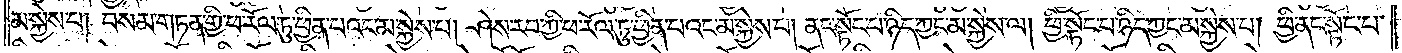མ་སྐྱེས་པ། བསམ་གཏན་གྱི་ཕ་རོལ་ཏུ་ཕྱིན་པའང་མ་སྐྱེས་པ། ཤེས་རབ་ཀྱི་ཕ་རོལ་ཏུ་ཕྱིན་པའང་མ་སྐྱེས་པ། ནང་སྟོང་པ་ཉིད་ཀྱང་མ་སྐྱེས་པ། ཕྱི་སྟོང་པ་ཉིད་ཀྱང་མ་སྐྱེས་པ། ཕྱི་ནང་སྟོང་པ་
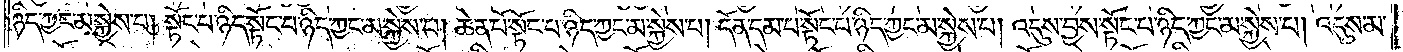ཉིད་ཀྱང་མ་སྐྱེས་པ། སྟོང་པ་ཉིད་སྟོང་པ་ཉིད་ཀྱང་མ་སྐྱེས་པ། ཆེན་པོ་སྟོང་པ་ཉིད་ཀྱང་མ་སྐྱེས་པ། དོན་དམ་པ་སྟོང་པ་ཉིད་ཀྱང་མ་སྐྱེས་པ། འདུས་བྱས་སྟོང་པ་ཉིད་ཀྱང་མ་སྐྱེས་པ། འདུས་མ་
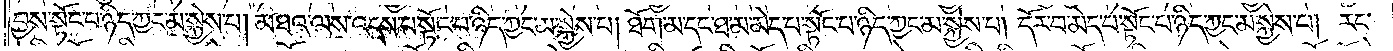བྱས་སྟོང་པ་ཉིད་ཀྱང་མ་སྐྱེས་པ། མཐའ་ལས་འདས་པ་སྟོང་པ་ཉིད་ཀྱང་མ་སྐྱེས་པ། ཐོག་མ་དང་ཐ་མ་མེད་པ་སྟོང་པ་ཉིད་ཀྱང་མ་སྐྱེས་པ། དོར་བ་མེད་པ་སྟོང་པ་ཉིད་ཀྱང་མ་སྐྱེས་པ། རང་
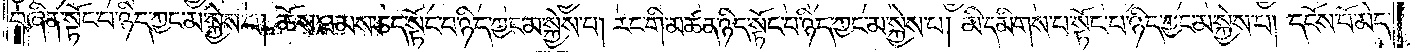བཞིན་སྟོང་པ་ཉིད་ཀྱང་མ་སྐྱེས་པ། ཆོས་ཐམས་ཅད་སྟོང་པ་ཉིད་ཀྱང་མ་སྐྱེས་པ། རང་གི་མཚན་ཉིད་སྟོང་པ་ཉིད་ཀྱང་མ་སྐྱེས་པ། མི་དམིགས་པ་སྟོང་པ་ཉིད་ཀྱང་མ་སྐྱེས་པ། དངོས་པོ་མེད་
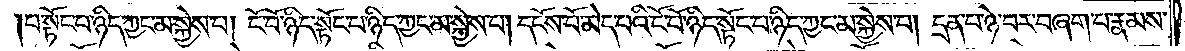པ་སྟོང་པ་ཉིད་ཀྱང་མ་སྐྱེས་པ། ངོ་བོ་ཉིད་སྟོང་པ་ཉིད་ཀྱང་མ་སྐྱེས་པ། དངོས་པོ་མེད་པའི་ངོ་བོ་ཉིད་སྟོང་པ་ཉིད་ཀྱང་མ་སྐྱེས་པ། དྲན་པ་ཉེ་བར་བཞག་པ་རྣམས་
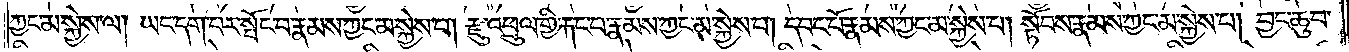ཀྱང་མ་སྐྱེས་ལ། ཡང་དག་པར་སྤོང་བ་རྣམས་ཀྱང་མ་སྐྱེས་པ། རྫུ་འཕྲུལ་གྱི་རྐང་པ་རྣམས་ཀྱང་མ་སྐྱེས་པ། དབང་པོ་རྣམས་ཀྱང་མ་སྐྱེས་པ། སྟོབས་རྣམས་ཀྱང་མ་སྐྱེས་པ། བྱང་ཆུབ་
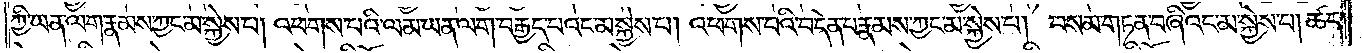ཀྱི་ཡན་ལག་རྣམས་ཀྱང་མ་སྐྱེས་པ། འཕགས་པའི་ལམ་ཡན་ལག་བརྒྱད་པའང་མ་སྐྱེས་པ། འཕགས་པའི་བདེན་པ་རྣམས་ཀྱང་མ་སྐྱེས་པ། བསམ་གཏན་བཞིའང་མ་སྐྱེས་པ། ཚད་
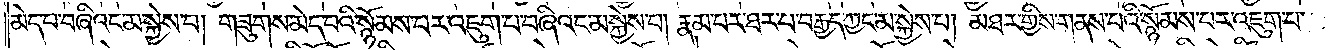མེད་པ་བཞིའང་མ་སྐྱེས་པ། གཟུགས་མེད་པའི་སྙོམས་པར་འཇུག་པ་བཞིའང་མ་སྐྱེས་པ། རྣམ་པར་ཐར་པ་བརྒྱད་ཀྱང་མ་སྐྱེས་པ། མཐར་གྱིས་གནས་པའི་སྙོམས་པར་འཇུག་པ་
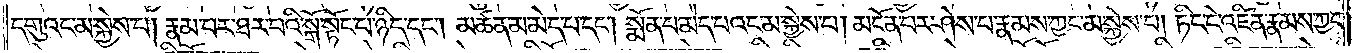དགུའང་མ་སྐྱེས་པ། རྣམ་པར་ཐར་པའི་སྒོ་སྟོང་པ་ཉིད་དང༌། མཚན་མ་མེད་པ་དང༌། སྨོན་པ་མེད་པའང་མ་སྐྱེས་པ་།མངོན་པར་ཤེས་པ་རྣམས་ཀྱང་མ་སྐྱེས་པ། ཏིང་ངེ་འཛིན་རྣམས་ཀྱང་
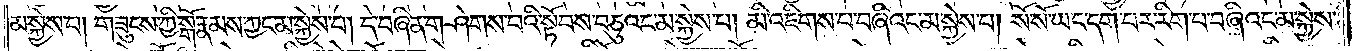མ་སྐྱེས་པ། གཟུངས་ཀྱི་སྒོ་རྣམས་ཀྱང་མ་སྐྱེས་པ། དེ་བཞིན་གཤེགས་པའི་སྟོབས་བཅུའང་མ་སྐྱེས་པ། མི་འཇིགས་པ་བཞིའང་མ་སྐྱེས་པ། སོ་སོ་ཡང་དག་པར་རིག་པ་བཞིའང་མ་སྐྱེས་
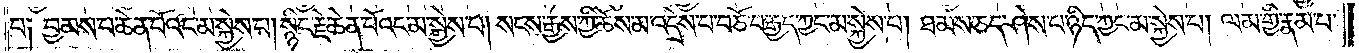པ༏ བྱམས་པ་ཆེན་པོའང་མ་སྐྱེས་པ། སྙིང་རྗེ་ཆེན་པོའང་མ་སྐྱེས་པ། སངས་རྒྱས་ཀྱི་ཆོས་མ་འདྲེས་པ་བཅོ་བརྒྱད་ཀྱང་མ་སྐྱེས་པ། ཐམས་ཅད་ཤེས་པ་ཉིད་ཀྱང་མ་སྐྱེས་པ། ལམ་གྱི་རྣམ་པ་
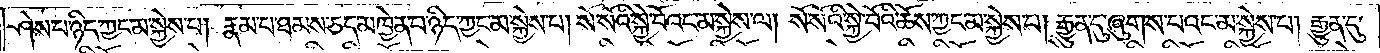ཤེས་པ་ཉིད་ཀྱང་མ་སྐྱེས་པ། རྣམ་པ་ཐམས་ཅད་མཁྱེན་པ་ཉིད་ཀྱང་མ་སྐྱེས་པ། སོ་སོའི་སྐྱེ་བོའང་མ་སྐྱེས་པ། སོ་སོའི་སྐྱེ་བོའི་ཆོས་ཀྱང་མ་སྐྱེས་པ། རྒྱུན་དུ་ཞུགས་པའང་མ་སྐྱེས་པ། རྒྱུན་དུ་
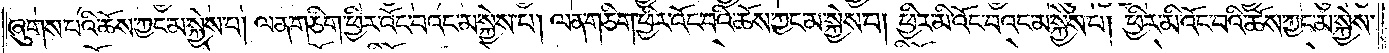ཞུགས་པའི་ཆོས་ཀྱང་མ་སྐྱེས་པ། ལན་ཅིག་ཕྱིར་འོང་བའང་མ་སྐྱེས་པ། ལན་ཅིག་ཕྱིར་འོང་བའི་ཆོས་ཀྱང་མ་སྐྱེས་པ། ཕྱིར་མི་འོང་བའང་མ་སྐྱེས་པ། ཕྱིར་མི་འོང་བའི་ཆོས་ཀྱང་མ་སྐྱེས་
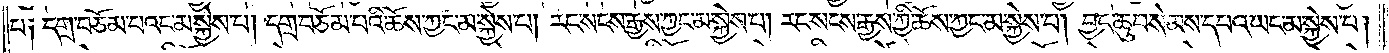པ༏ དགྲ་བཅོམ་པའང་མ་སྐྱེས་པ། དགྲ་བཅོམ་པའི་ཆོས་ཀྱང་མ་སྐྱེས་པ། རང་སངས་རྒྱས་ཀྱང་མ་སྐྱེས་པ། རང་སངས་རྒྱས་ཀྱི་ཆོས་ཀྱང་མ་སྐྱེས་པ། བྱང་ཆུབ་སེམས་དཔའ་ཡང་མ་སྐྱེས་པ།
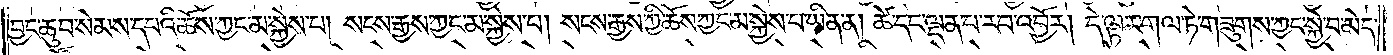བྱང་ཆུབ་སེམས་དཔའི་ཆོས་ཀྱང་མ་སྐྱེས་པ། སངས་རྒྱས་ཀྱང་མ་སྐྱེས་པ། སངས་རྒྱས་ཀྱི་ཆོས་ཀྱང་མ་སྐྱེས་པ་ཡིན་ན། ཚེ་དང་ལྡན་པ་རབ་འབྱོར། དེ་ལྟར་གལ་ཏེ། གཟུགས་ཀྱང་སྐྱེ་བ་མེད་
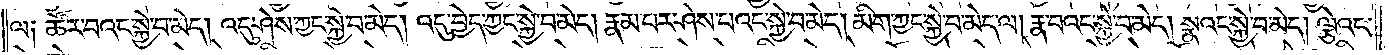ལ༏ ཚོར་བའང་སྐྱེ་བ་མེད། འདུ་ཤེས་ཀྱང་སྐྱེ་བ་མེད། འདུ་བྱེད་ཀྱང་སྐྱེ་བ་མེད། རྣམ་པར་ཤེས་པའང་སྐྱེ་བ་མེད། མིག་ཀྱང་སྐྱེ་བ་མེད་ལ། རྣ་བའང་སྐྱེ་བ་མེད། སྣའང་སྐྱེ་བ་མེད། ལྕེའང་
